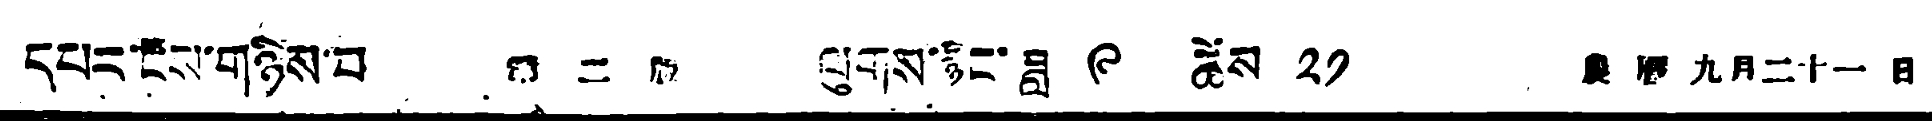དཔར་ངོས་གཉིས་པ 第 二 版 ལུགས་རྙིང་ཟླ ༩ ཚེས ༢༡ 農 曆 九月二十一 日
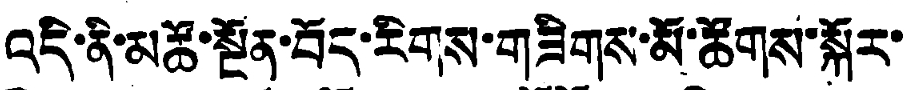འདི་ནི་མཚོ་སྔོན་བོད་རིགས་གཟིགས་མོ་ཚོགས་སྐོར་
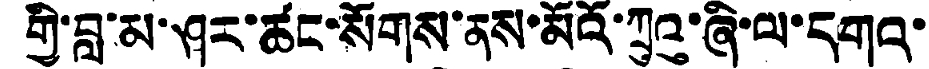གྱི་བླ་མ་ཤར་ཚང་སོགས་ནས་མོའོ་ཀྲུའུ་ཞི་ལ་དགའ་
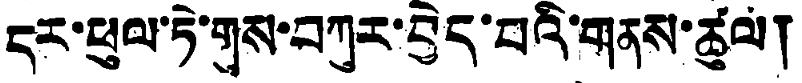དར་ཕུལ་ཏེ་གུས་བཀུར་བྱེད་པའི་གནས་ཚུལ།
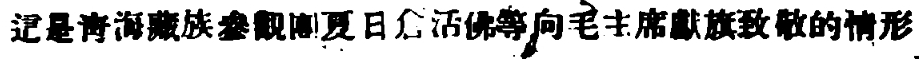這是青海藏族參觀團夏日倉活佛等向毛主席獻旗致敬的情形
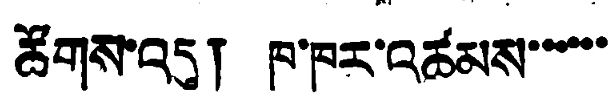ཚོགས་འདུ། ཁ་ཁར་འཚམས་་་་་
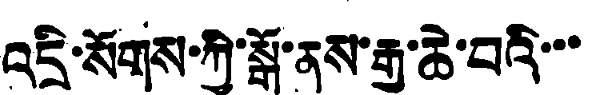འདྲི་སོགས་ཀྱི་སྒོ་ནས་རྒྱ་ཆེ་བའི་་་
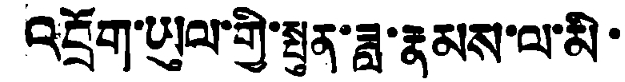འབྲོག་ཡུལ་གྱི་སྤུན་ཟླ་རྣམས་ལ་མི་
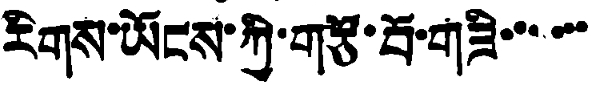རིགས་ཡོངས་ཀྱི་གཙོ་བོ་གཟི་་་་་
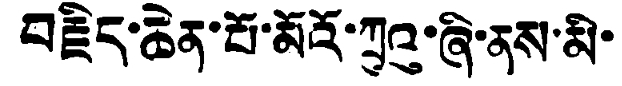བརྗིད་ཆེན་པོ་མོའོ་ཀྲུའུ་ཞི་ནས་མི་
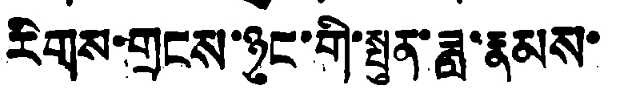རིགས་གྲངས་ཉུང་གི་སྤུན་ཟླ་རྣམས་
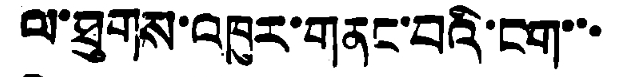ལ་ཐུགས་འཁུར་གནང་བའི་ངག་་་
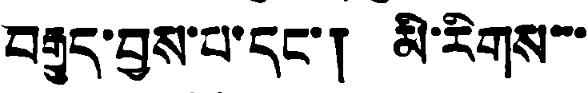བརྒྱུད་བྱས་པ་དང་། མི་རིགས་་་
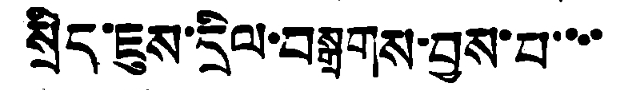སྲིད་ཇུས་དྲིལ་བསྒྲགས་བྱས་པ་་་་
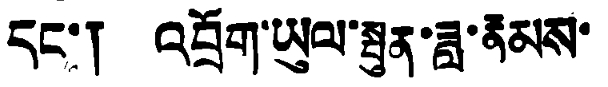དང་། འབྲོག་ཡུལ་སྤུན་ཟླ་རྣམས་
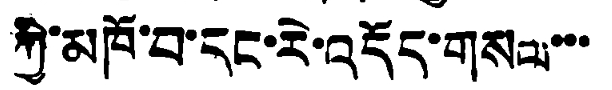ཀྱི་མཁོ་བ་དང་རེ་འདོད་གསལ་་་
